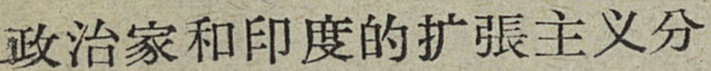政治家和印度的扩張主义分
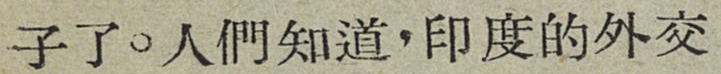子了。人們知道，印度的外交
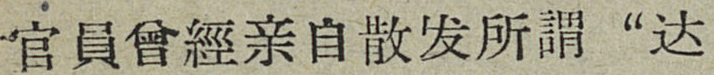官員曾經亲自散发所謂“达
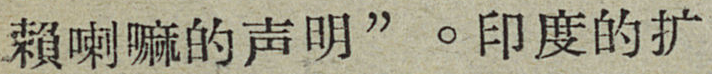賴喇嘛的声明”。印度的扩
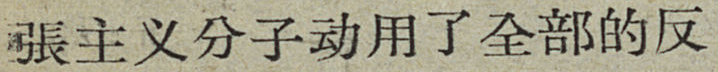張主义分子动用了全部的反
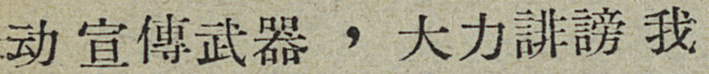动 宣傳武器 ，大力誹謗我
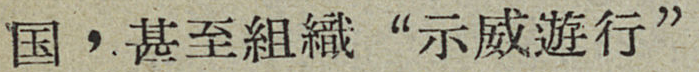国，甚至組織“示威游行”
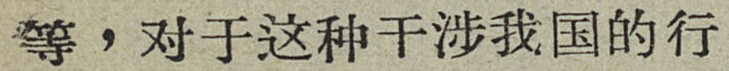等，对于这种干涉我国的行
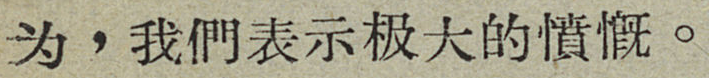为，我們表示极大的憤慨。
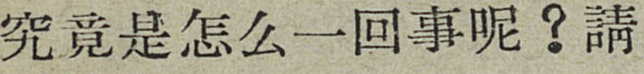究竟是怎么一回事呢？請
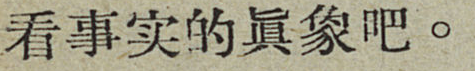看事实的眞象吧。
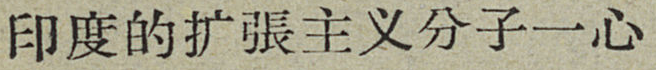印度的扩張主义分子一心
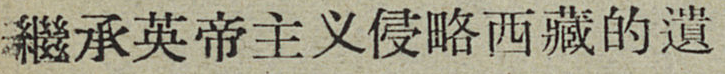繼承英帝主义靑略西藏的遺
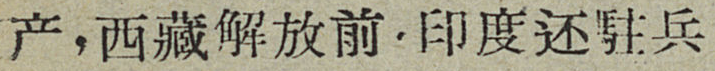产，西藏解放前，印度还駐兵
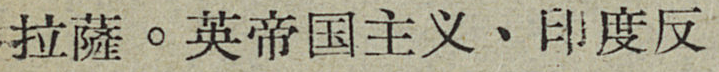拉薩。英帝国主义、印度反
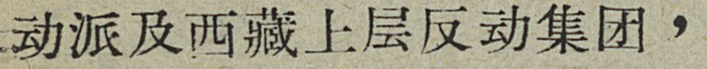动派及西藏上层反动集团，
